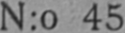N:o 45
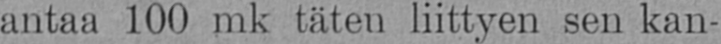antaa 100 mk täten liittyen sen kan-
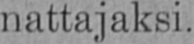nattajaksi.
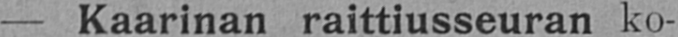— Kaarinan raittiusseuran ko-
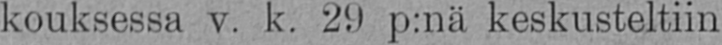kouksessa v. k. 29 p:nä keskusteltiin
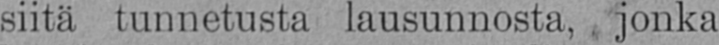siitä tunnetusta lausunnosta, jonka
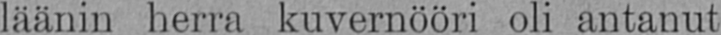läänin herra kuvernööri oli antanut
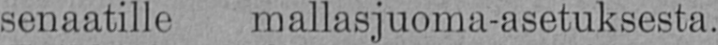senaatille mallasjuoma-asetuksesta.
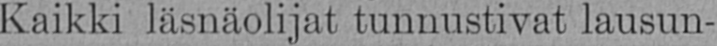Kaikki läsnäolijat tunnustivat lausun-
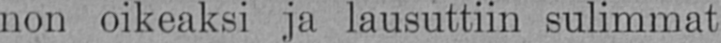non oikeaksi ja lausuttiin sulimmat
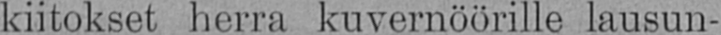kiitokset herra kuvernöörille lausun-
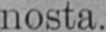nosta.
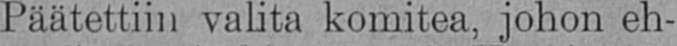Päätettiin valita komitea, johon eh-
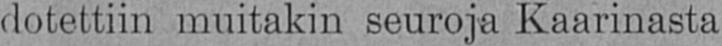dotettiin muitakin seuroja Kaarinasta
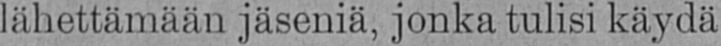lähettämään jäseniä, jonka tulisi käydä
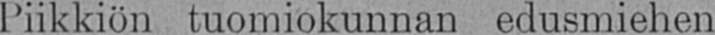Piikkiön tuomiokunnan edusmiehen
